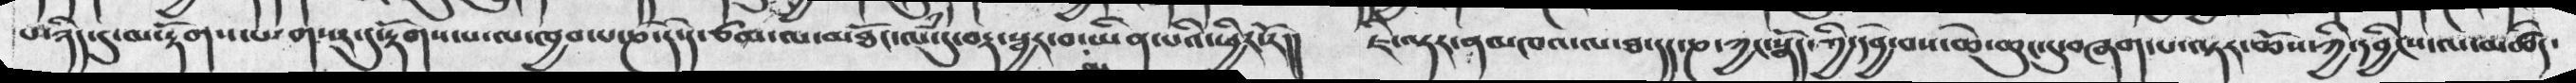པ་ཉིད་དུ་མ་རྟོགས་པ་གསར་དུ་རྟོགས་པ་ལ་ཁྱབ་པ་ཎ་དེ་དེ་ཙམ་ལ་མཐོང་ལཾ་དུ་བར་སྦྱར་བ་ཡིན་པའི་ཕྱིར་རོ།།  ཇི་ལྟར་ནམཁའ་ལ་ཐ་དད་ཎ་ཀྱང་སྣོད་ཀྱེ་དབྱེ་བས་ཆ་ཆུང་དུ་བཞག་པ་ལྟར་ཆོས་ཀྱི་དབྱིངས་ལ་མཚིད་
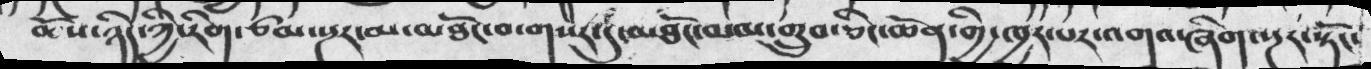ཆོས་ཉིད་ཀྱི་རིག་ཙམ་སྔར་མ་མཐོང་བ་གསར་དུ་མཐོང་མམ་གྲུབ་ཅིང་ཆེན་གྱི་ཁྱད་པར་འགའ་ཞིག་སྔར་སྟོང་
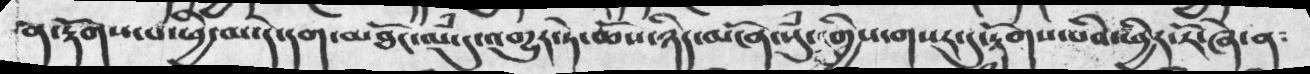ན་རྟོགས་པ་ཕྱི་མ་དེ་དག་མཐོང་ལཾ་དུ་འགྱུར་ཏེ་ཆོས་ཉིད་མངོན་སུཾ་གྱིས་གསར་དུ་རྟོགས་པའི་ཕྱིར་རོ་ཞེ་ན༴
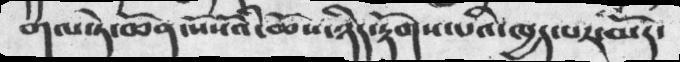གལ་ཏེ་ཆེན་སོསོའི་ཆོས་ཉིད་རྟོགས་པའི་ཁྱད་པར་མོད་
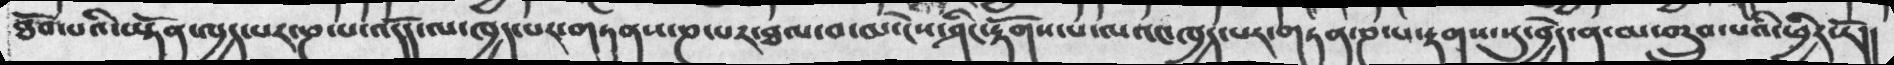ཐོབ་པའི་ཡྟོན་ཁྱད་པར་ཎ་པ་འདོད་ལ་ཁྱད་པར་གཏནས་ཎ་པར་ཐལ་བ་མ་ངེས་ཤིང་རྟོགས་པ་ལའང་ཁྱད་པར་གཏན་ཎ་ས་རྟགས་སུ་བྱེད་ན་མ་གྲུབ་པའི་ཕྱིར་རོ།།
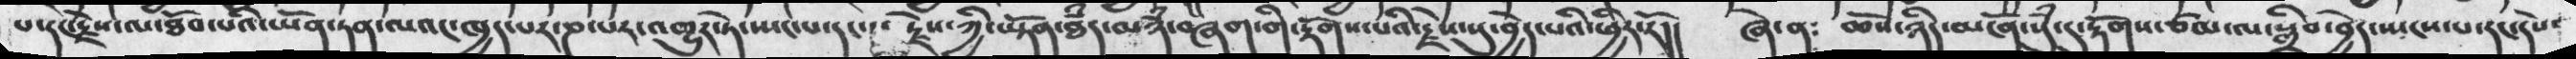པ་དང་རྗེས་ལ་ཐོབ་པའི་ཡོན་ཏན་ལའང་ཁྱད་པར་ཎ་པར་འགྱུར་ཏ་ཡང་པ་དང་རྗེས་ཀྱི་ཡྟོན་ཐཾད་མཉཾ་བཞག་གི་རྟོགས་པའི་རྗེས་སུ་བྱེད་པའི་ཕྱིར་རོ།།   ཞེ་ན༴   ཆོས་ཉིད་མངོན་སུཾ་དུ་རྟོགས་ཙམ་ལ་སྒྲིབ་བྱེད་ཡངས་པ་དང་དེས་
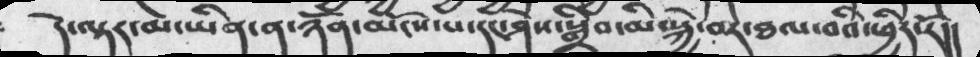དེ་་ལྟར་མ་ཡིན་ན་ཉོན་མོངས་པ་དང་ཤེས་སྒྲིབ་མི་སྐྱེ་བར་ཐལ་བའི་ཕྱིར་རོ།།
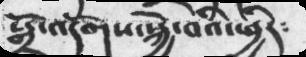སྒྲོ་འདོགས་སྐྱེ་བའི་ཕྱིར༴
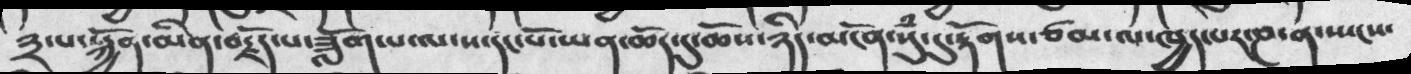༣་པ་སྐྱོན་མིན་བརྗོད་པ་ཟློག་པ་ལ་ས་དང་པོ་ཡན་ཆོད་དུ་ཆོས་ཉིད་མངོན་སུཾ་དུ་རྟོགས་ཙམ་ལ་ཁྱད་པར་ཎ་ན་ཡངས་
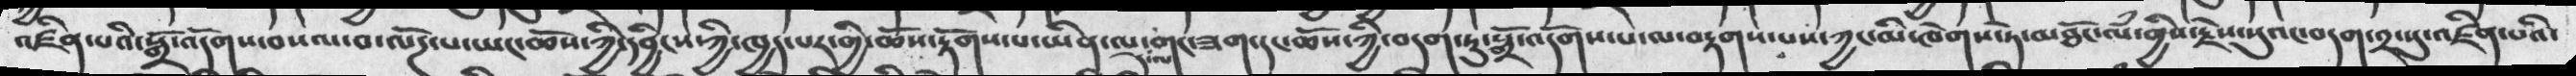འཛིན་པའི་སྒྲོ་འདོགས་བསལ་བ་ལོཌ་པ་ཡང་ཆོས་ཀྱི་དབྱིངས་ཀྱི་ཁྱད་པར་གྱི་ཆོས་རྟོགས་པ་ཡིན་ལ་དེ་ལ་གང་ཟག་དང་ཆོས་ཀྱི་བདག་ཏུ་སྒྲོ་འདོགས་པ་མ་བརྟགས་པས་ཀྱང་མི་ཁེགས་ཏེ་མཐོང་ལཾ་གྱིས་རྗེས་སུའང་བདག་༢་སུ་འཛིན་པའི་
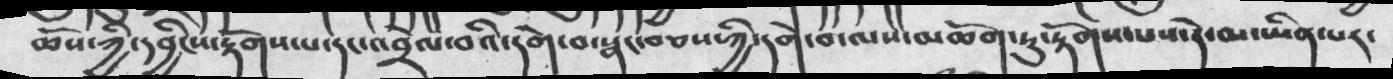ཆོས་ཀྱི་དབྱིངས་རྟོགས་པ་དང་འབྲེལ་བའི་དགེ་བ་སྣང་བཅས་ཀྱི་དགེ་བ་ལས་མཆོག་ཏུ་རྟོགས་པས་དེ་མ་ཡིན་པར་
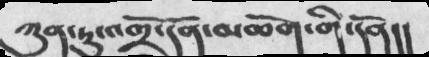ཀུན་ཏུ་འགྲོ་དོན་མཆོག་གི་དོན།།
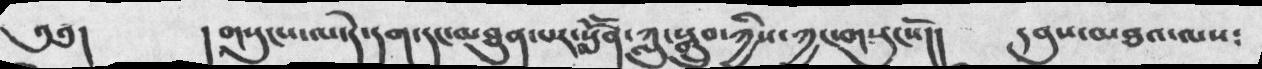༄༅།    ། གསུངས་ལ་དེ་དག་དང་མཐུན་པར་སློོན་ཀླུ་སྒྲུབ་ཀྱིས་ཀྱང་གསུངསོ།།  དབུས་མཐའ་ལས༴
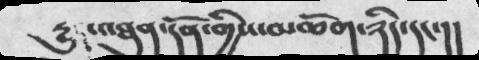དྱུ་མཐུན་དོན་གྱིས་མཆོག་ཉིད་དང་།།
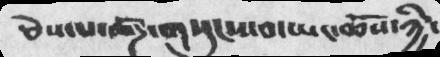ཅེས་པ་ཚོཌ་གསུངས་བ་ཡང་ཆོས་ཀྱི་
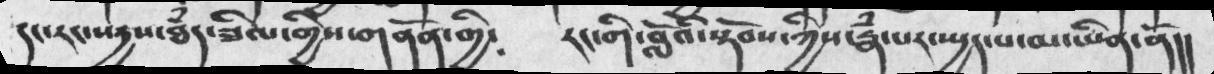དང་རང་སདྱས་ཐཾད་ཟིལ་གྱིས་གནོན་གྱི༴   རང་གི་བློའི་སྟོབས་ཀྱི་རྣཾ་པར་སྤྱད་པ་མ་ཡིན་ནོ།།
